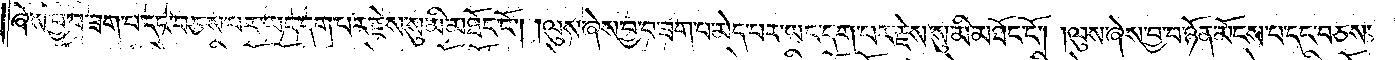ཞེས་བྱ་བ་ཟག་པ་དང་བཅས་པར་ཡང་དག་པར་རྗེས་སུ་མི་མཐོང་ངོ༌། །ལུས་ཞེས་བྱ་བ་ཟག་པ་མེད་པར་ཡང་དག་པར་རྗེས་སུ་མི་མཐོང་ངོ༌། །ལུས་ཞེས་བྱ་བ་ཉོན་མོངས་པ་དང་བཅས་
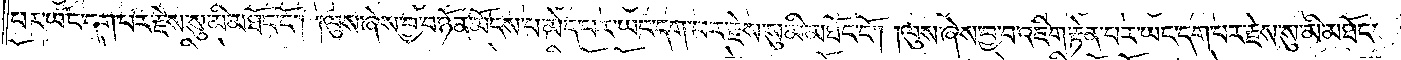པར་ཡང་དག་པར་རྗེས་སུ་མི་མཐོང་ངོ༌། །ལུས་ཞེས་བྱ་བ་ཉོན་མོངས་པ་མེད་པར་ཡང་དག་པར་རྗེས་སུ་མི་མཐོང་ངོ༌། །ལུས་ཞེས་བྱ་བ་འཇིག་རྟེན་པར་ཡང་དག་པར་རྗེས་སུ་མི་མཐོང་
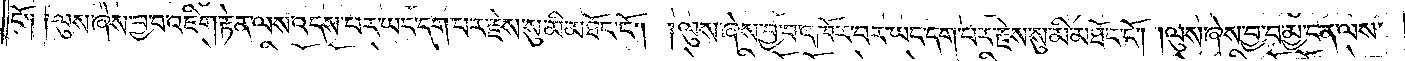ངོ༑ ༑ལུས་ཞེས་བྱ་བ་འཇིག་རྟེན་ལས་འདས་པར་ཡང་དག་པར་རྗེས་སུ་མི་མཐོང་ངོ༌། །ལུས་ཞེས་བྱ་བ་འཁོར་བར་ཡང་དག་པར་རྗེས་སུ་མི་མཐོང་ངོ༌། །ལུས་ཞེས་བྱ་བ་མྱ་ངན་ལས་
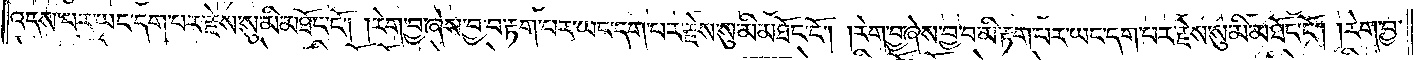འདས་པར་ཡང་དག་པར་རྗེས་སུ་མི་མཐོང་ངོ༌། །རེག་བྱ་ཞེས་བྱ་བ་རྟག་པར་ཡང་དག་པར་རྗེས་སུ་མི་མཐོང་ངོ༌། །རེག་བྱ་ཞེས་བྱ་བ་མི་རྟག་པར་ཡང་དག་པར་རྗེས་སུ་མི་མཐོང་ངོ༌། །རེག་བྱ་
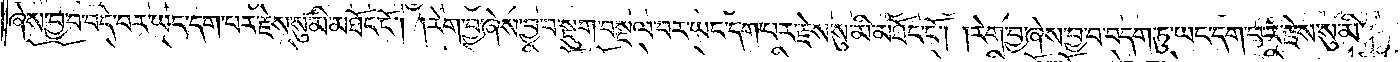ཞེས་བྱ་བ་བདེ་བར་ཡང་དག་པར་རྗེས་སུ་མི་མཐོང་ངོ༌། །རེག་བྱ་ཞེས་བྱ་བ་སྡུག་བསྔལ་བར་ཡང་དག་པར་རྗེས་སུ་མི་མཐོང་ངོ༌། །རེག་བྱ་ཞེས་བྱ་བ་བདག་ཏུ་ཡང་དག་པར་རྗེས་སུ་མི་
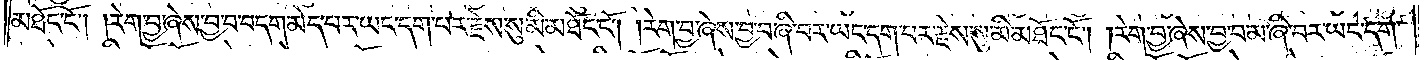མཐོང་ངོ༌། །རེག་བྱ་ཞེས་བྱ་བ་བདག་མེད་པར་ཡང་དག་པར་རྗེས་སུ་མི་མཐོང་ངོ༌། །རེག་བྱ་ཞེས་བྱ་བ་ཞི་བར་ཡང་དག་པར་རྗེས་སུ་མི་མཐོང་ངོ༌། །རེག་བྱ་ཞེས་བྱ་བ་མ་ཞི་བར་ཡང་དག་
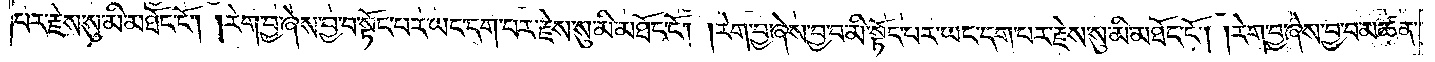པར་རྗེས་སུ་མི་མཐོང་ངོ༌། །རེག་བྱ་ཞེས་བྱ་བ་སྟོང་པར་ཡང་དག་པར་རྗེས་སུ་མི་མཐོང་ངོ༌། །རེག་བྱ་ཞེས་བྱ་བ་མི་སྟོང་པར་ཡང་དག་པར་རྗེས་སུ་མི་མཐོང་ངོ༌། །རེག་བྱ་ཞེས་བྱ་བ་མཚན་
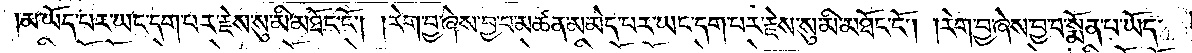མ་ཡོད་པར་ཡང་དག་པར་རྗེས་སུ་མི་མཐོང་ངོ༌། །རེག་བྱ་ཞེས་བྱ་བ་མཚན་མ་མེད་པར་ཡང་དག་པར་རྗེས་སུ་མི་མཐོང་ངོ༌། །རེག་བྱ་ཞེས་བྱ་བ་སྨོན་པ་ཡོད་
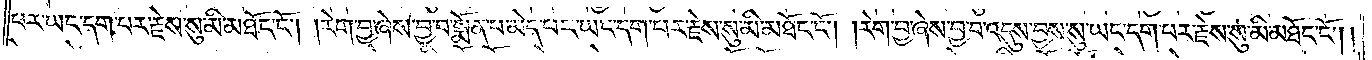པར་ཡང་དག་པར་རྗེས་སུ་མི་མཐོང་ངོ༌། །རེག་བྱ་ཞེས་བྱ་བ་སྨོན་པ་མེད་པར་ཡང་དག་པར་རྗེས་སུ་མི་མཐོང་ངོ༌། །རེག་བྱ་ཞེས་བྱ་བ་འདུས་བྱས་སུ་ཡང་དག་པར་རྗེས་སུ་མི་མཐོང་ངོ༌། །
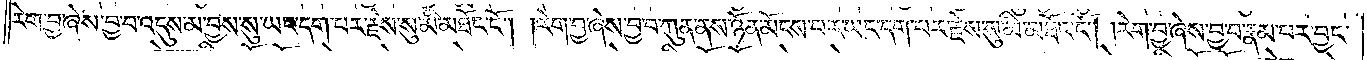རེག་བྱ་ཞེས་བྱ་བ་འདུས་མ་བྱས་སུ་ཡང་དག་པར་རྗེས་སུ་མི་མཐོང་ངོ༌། །རེག་བྱ་ཞེས་བྱ་བ་ཀུན་ནས་ཉོན་མོངས་པར་ཡང་དག་པར་རྗེས་སུ་མི་མཐོང་ངོ༌། །རེག་བྱ་ཞེས་བྱ་བ་རྣམ་པར་བྱང་
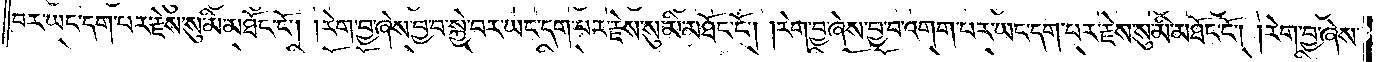བར་ཡང་དག་པར་རྗེས་སུ་མི་མཐོང་ངོ༌། །རེག་བྱ་ཞེས་བྱ་བ་སྐྱེ་བར་ཡང་དག་པར་རྗེས་སུ་མི་མཐོང་ངོ༌། །རེག་བྱ་ཞེས་བྱ་བ་འགག་པར་ཡང་དག་པར་རྗེས་སུ་མི་མཐོང་ངོ༌། །རེག་བྱ་ཞེས་
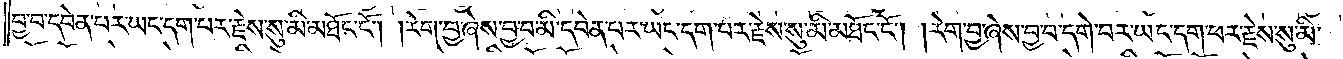བྱ་བ་དབེན་པར་ཡང་དག་པར་རྗེས་སུ་མི་མཐོང་ངོ༌། །རེག་བྱ་ཞེས་བྱ་བ་མི་དབེན་པར་ཡང་དག་པར་རྗེས་སུ་མི་མཐོང་ངོ༌། །རེག་བྱ་ཞེས་བྱ་བ་དགེ་བར་ཡང་དག་པར་རྗེས་སུ་མི་
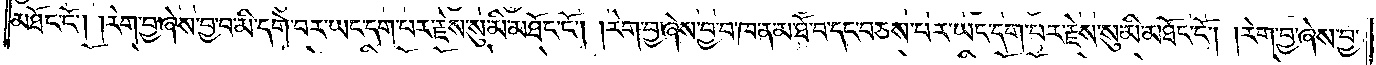མཐོང་ངོ༌། །རེག་བྱ་ཞེས་བྱ་བ་མི་དགེ་བར་ཡང་དག་པར་རྗེས་སུ་མི་མཐོང་ངོ༌། །རེག་བྱ་ཞེས་བྱ་བ་ཁ་ན་མ་ཐོ་བ་དང་བཅས་པར་ཡང་དག་པར་རྗེས་སུ་མི་མཐོང་ངོ༌། །རེག་བྱ་ཞེས་བྱ་
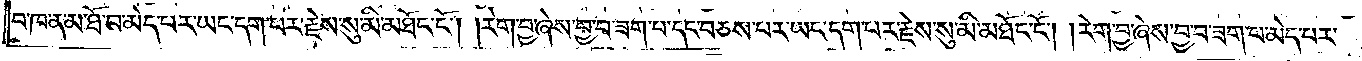བ་ཁ་ན་མ་ཐོ་བ་མེད་པར་ཡང་དག་པར་རྗེས་སུ་མི་མཐོང་ངོ༌། །རེག་བྱ་ཞེས་བྱ་བ་ཟག་པ་དང་བཅས་པར་ཡང་དག་པར་རྗེས་སུ་མི་མཐོང་ངོ༌། །རེག་བྱ་ཞེས་བྱ་བ་ཟག་པ་མེད་པར་
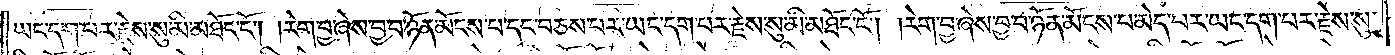ཡང་དག་པར་རྗེས་སུ་མི་མཐོང་ངོ༌། །རེག་བྱ་ཞེས་བྱ་བ་ཉོན་མོངས་པ་དང་བཅས་པར་ཡང་དག་པར་རྗེས་སུ་མི་མཐོང་ངོ༌། །རེག་བྱ་ཞེས་བྱ་བ་ཉོན་མོངས་པ་མེད་པར་ཡང་དག་པར་རྗེས་སུ་
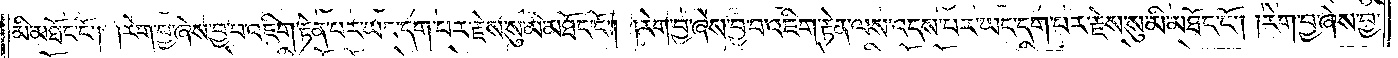མི་མཐོང་ངོ༌། །རེག་བྱ་ཞེས་བྱ་བ་འཇིག་རྟེན་པར་ཡང་དག་པར་རྗེས་སུ་མི་མཐོང་ངོ༌། །རེག་བྱ་ཞེས་བྱ་བ་འཇིག་རྟེན་ལས་འདས་པར་ཡང་དག་པར་རྗེས་སུ་མི་མཐོང་ངོ༌། །རེག་བྱ་ཞེས་བྱ་
